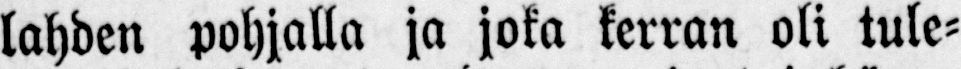lahden pohjalla ja joka kerran oli tule-
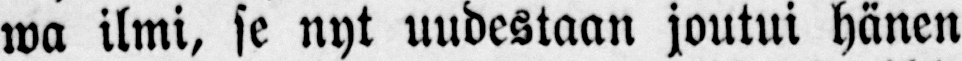wa ilmi, se nyt uudestaan joutui hänen
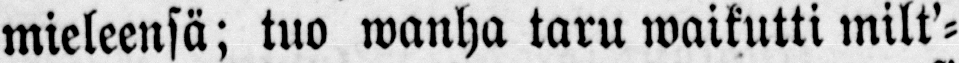mieleensä; tuo wanha taru waikutti milt’-
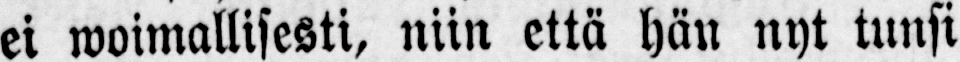ei woimallisesti, niin että hän nyt tunsi
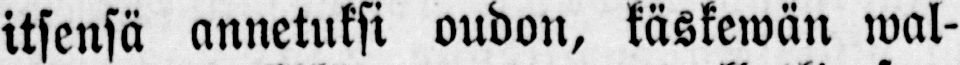itsensä annetuksi oudon, käskewän wal-
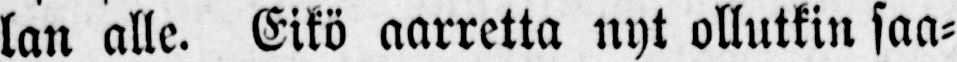lan alle. Eikö aarretta nyt ollutkin saa-
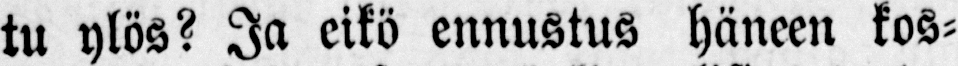tu ylös? Ja eikö ennustus häneen kos-
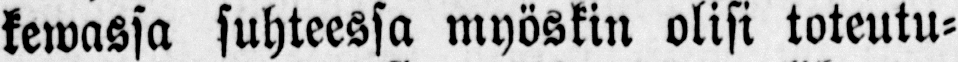kewassa suhteessa myöskin olisi toteutu-
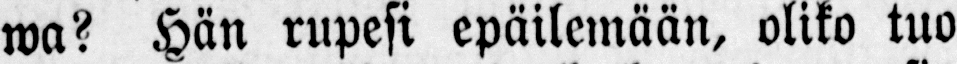wa? Hän rupesi epäilemään, oliko tuo
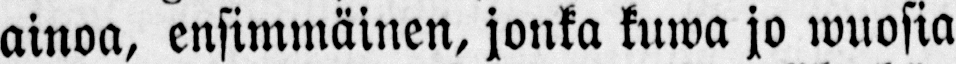ainoa, ensimmäinen, jonka kuwa jo wuosia
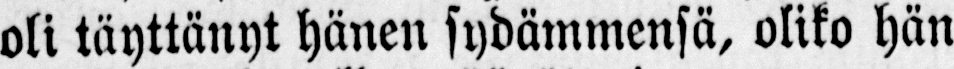oli täyttänyt hänen sydämmensä, oliko hän
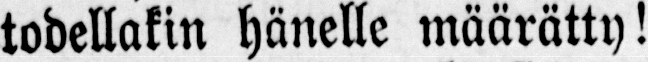todellakin hänelle määrätty!
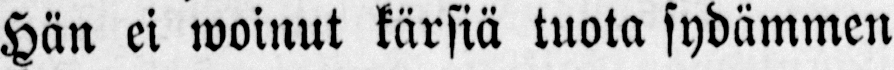Hän ei woinut kärsiä tuota sydämmen
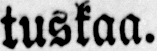tuskaa.
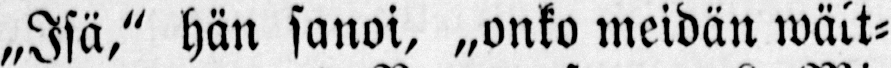„Isä," hän sanoi, „onko meidän wält-
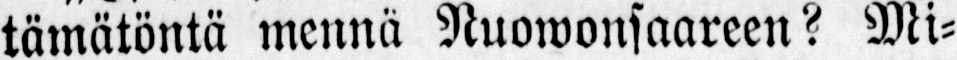tämätöntä mennä Nuowonsaareen? Mi-
